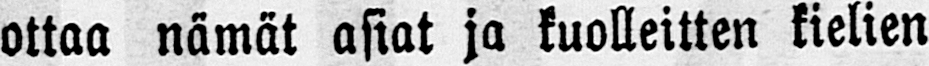ottaa nämät asiat ja kuolleitten kielien
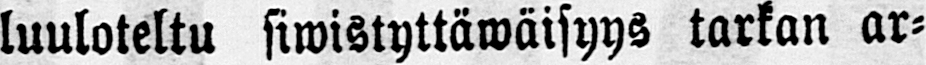luuloteltu siwistyttäwäisyys tarkan ar-
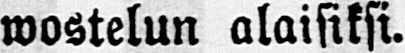wostelun alaisiksi.
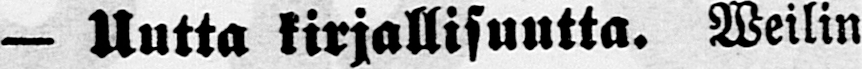— Uutta kirjallisuutta. Weilin
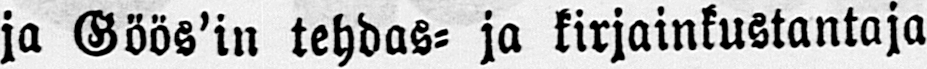ja Göös'in tehdas- ja kirjainkustantaja
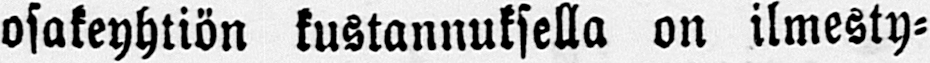osakeyhtiön kustannuksella on ilmesty-
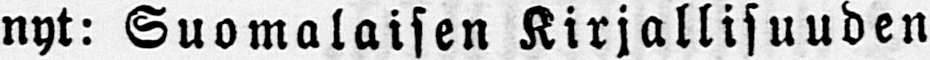nyt: Suomalaisen Kirjallisuuden
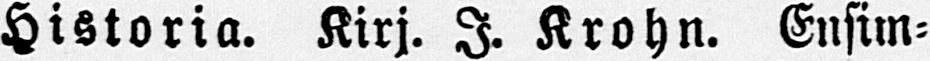Historia. Kirj. I. Krohn. Ensim-
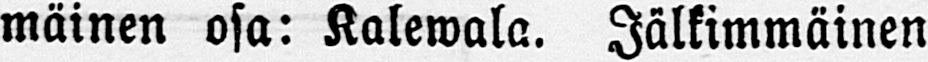mäinen osa: Kalewala. Jälkimmäinen
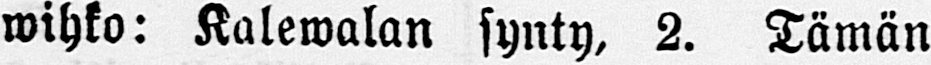wihko: Kalewalan synty, 2. Tämän
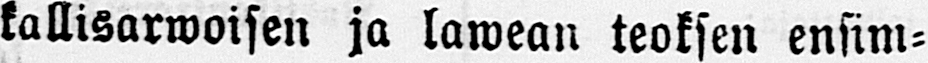kallisarmoisen ja lawean teoksen ensim-
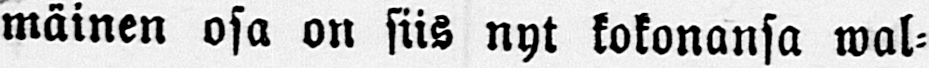mäinen osa on siis nyt kokonansa wal-
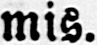mis.
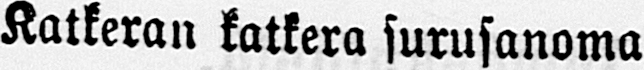-Katkeran katkera surusanoma
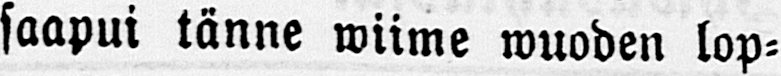saapui tänne wiime wuoden lop-
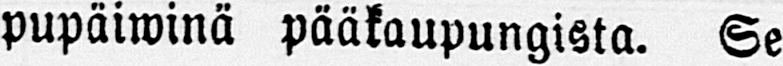pupäiwinä pääkaupungista. Se
